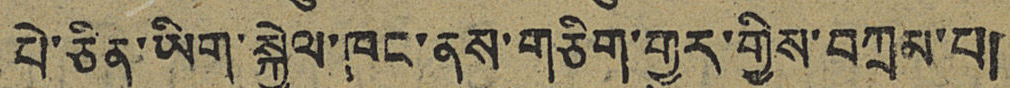པེ་ཅིན་ཡིག་སྐྱེལ་ཁང་ནས་གཅིག་གྱུར་གྱིས་བཀྲམ་པ།
